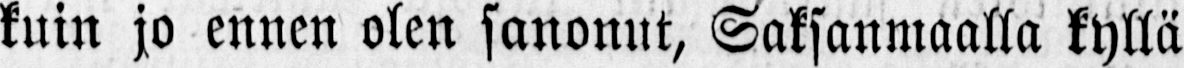kuin jo ennen olen sanonut, Saksanmaalla kyllä
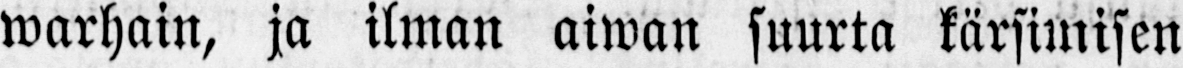warhain, ja ilman aiwan suurta kärsimisen
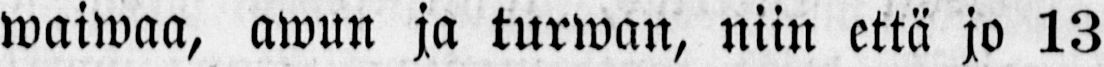waiwaa, awun ja turwan, niin että jo 13
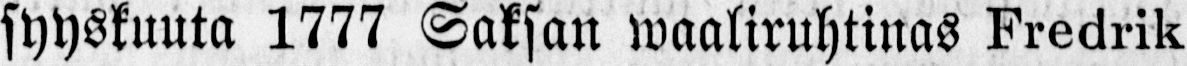syyskuuta 1777 Saksan waaliruhtinas Fredrik
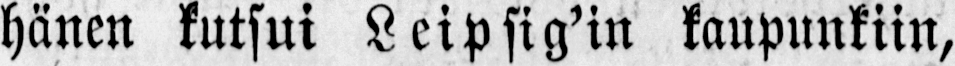hänen kutsui Leipsig'in kaupunkiin,
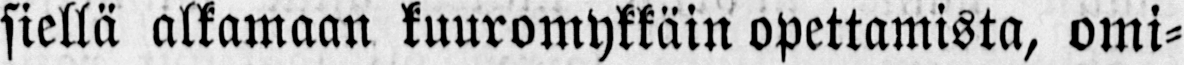siellä alkamaan kuuromykkäin opettamista, omi-
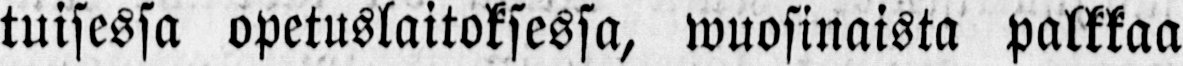tuisessa opetuslaitoksessa, wuosinaista palkkaa
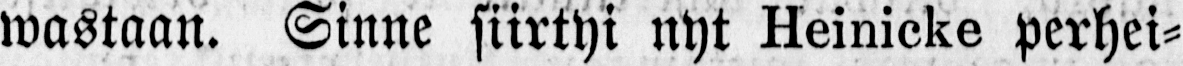wastaan. Sinne siirtyi nyt Heinicke perhei-
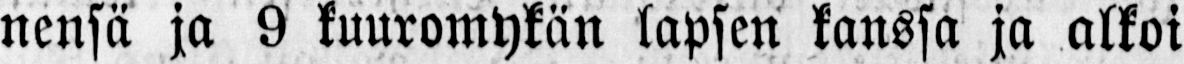nensä ja 9 kuuromykän lapsen kanssa ja alkoi
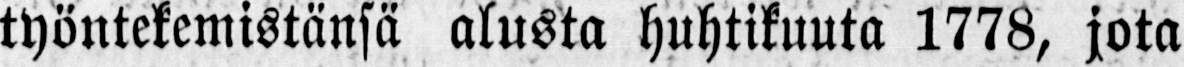työntekemistänsä alusta huhtikuuta 1778, jota
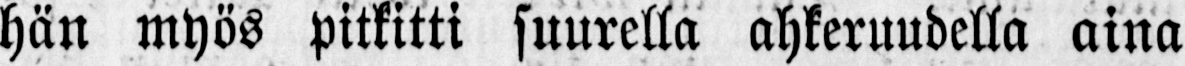hän myös pitkitti suurella ahkeruudella aina
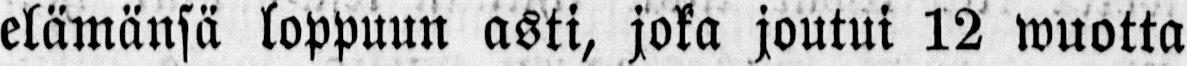elämänsä loppuun asti, joka joutui 12 wuotta
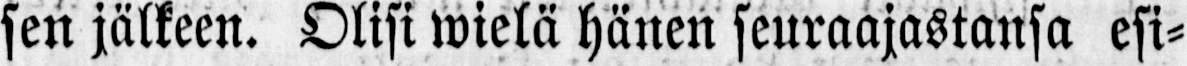sen jälkeen. Olisi wielä hänen seuraajastansa esi-
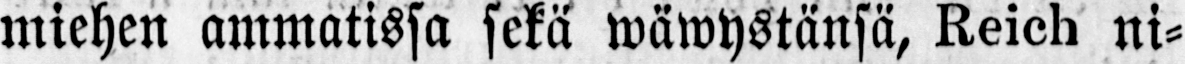miehen ammatissa sekä wäwystänsä, Reihk ni-
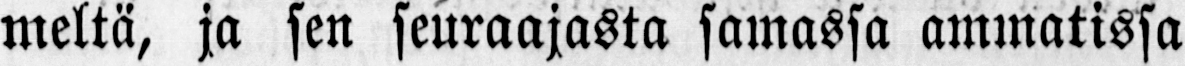meltä, ja sen seuraajasta samassa ammatissa
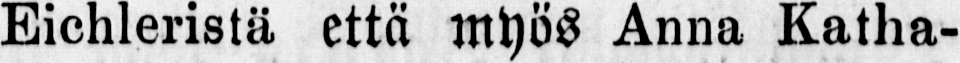Eickleristä että Myös Katha-
